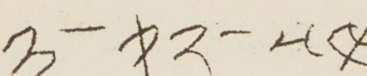༣- ༡༢-༥༤
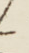༥
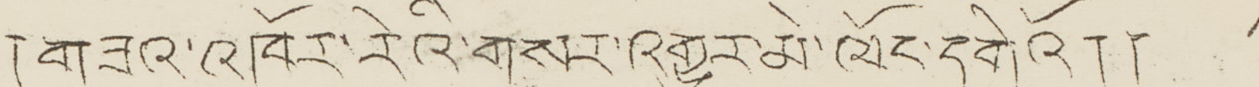། གཟའ་འཁོར་རེའི་གསར་འགྱུར་མེ་ལོང་དགེའོ།། ༣
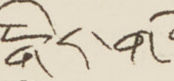༈ སྒེར་གསོལ་གསར་ཤོག་འདི་སྤྱི་
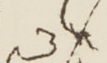ཟླ་
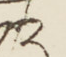༡༢
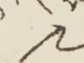༩
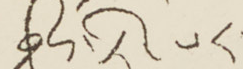བྲིས་ཏེ་པར་འདེབས་བསྒྲུབས་རུངས་
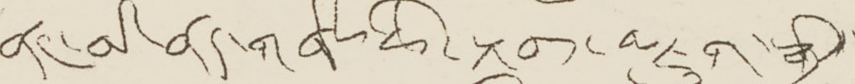ནང་མི་ནད་གཞིས་ཚེ་སྐབས་མཇུག་སྒྲིལ་
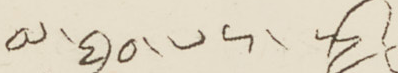མ་ཐུབ་པར་སྤྱི་
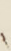༢
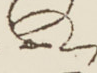ཚེས་
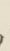༣
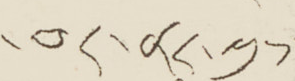བར་ནར་ལུས་
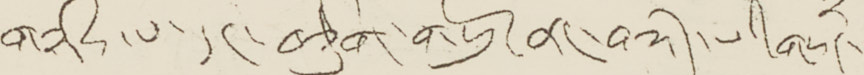གཉིས་པ་དང་བཅུག་གསུམ་ནང་བཟོད་གསར་
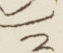༢
